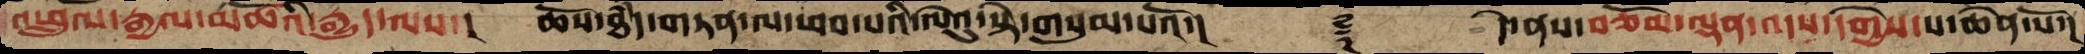འཕྲུལ་རྒྱལ་མཚོའི་རྒྱུད་ལས་།  ཆོས་ཐཾད་གཏན་ལ་ཕབ་པའི་ལེའུ་སྟེ་གསུམ་པའོ་།   ࿑   དེ་ནས་བཅོམ་ལྡན་འདས་དགྱེས་པ་ཆེན་པོ་།
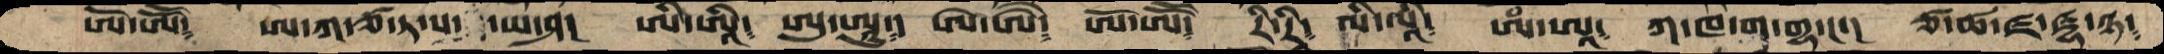ཨོ་ཨཽ༴  ཨ་ཀ་ཙ་ཏ་ས་ ཡ་ཤ།  ཨི་ཨཱི༴  ཨུ་ཨཱུ༴་  ཨེ་ཨཻ༴  ཨོ་ཨཽ༴  རི་རཱི༴  ལི་ལཱི༴  ཨཾ་ཨཱ༴  ཀ་ཁ་ག་གྷ་ང་།  ཙ་ཚ་ཛ་ཛྷ་ཉ༴
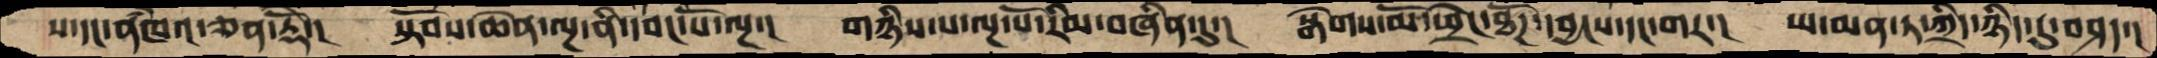པ་དང་ནཾཁའ་ཅན་རྡོེ་།  སྟོབས་ཆེན་ལྔ་ནི་དབང་པོ་ལྔ་།  གཉིས་པ་ལྔ་པོ་རིམ་བཞིན་དུ་།  སྒེགས་མོ་ཕྲེང་ཐོཌ་དབྱངས་དང་གར་།  ཡ་མན་ཏ་ཀྲིད་ཉིད་དུ་བཤད་།
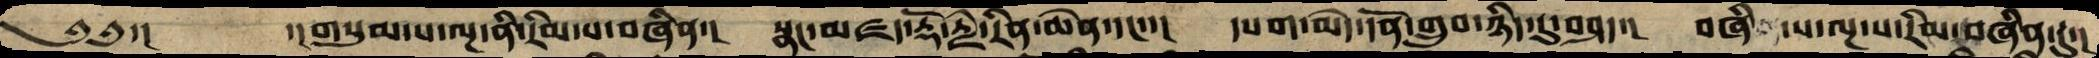༄༅་།   ་།གསུམ་པ་ལྔ་ནི་རིན་པ་བཞིན་།  སྣང་མཛད་རྡོ་རྗེ་རིན་ཆེན་དང་་།  དཔག་མེད་དོན་གྲུབ་ཉིད་དུ་བཤད་།  བཞི་པ་ལྔ་པ་རིམ་བཞིན་དུ་།
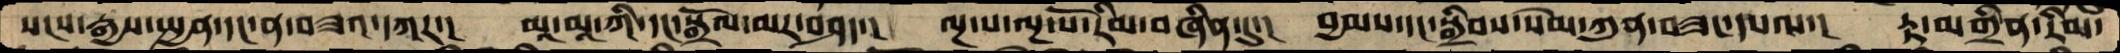སངས་རྒྱས་སྤྱན་དང་ན་བཟའ་དཀར་།  མཱ་མཱ་ཀི་དང་སྒྲོལ་མར་བཤད་།   ལྔ་པ་ལྔ་པོ་རིམ་བཞིན་དུ་།  བྱམས་དང་སྒྲིབས་སེལ་ཀུན་བཟང་དཔལ་།  རྟ་མགྲིན་རིམ་
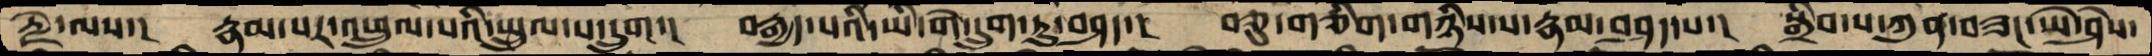རྗེ་ལས་།  རྣམ་པར་འཕྲུལ་པའི་སྤྲུལ་པ་དྲུག་།  བརྒྱད་པའི་ཡི་གེ་དྲུག་ཏུ་བཤད་།  བཅུ་གཅིག་གཉིས་པ་རྣམ་བཤད་པ་།  སྒྲིབ་པ་ཀུན་བཟང་ཡེ་ཤེས་
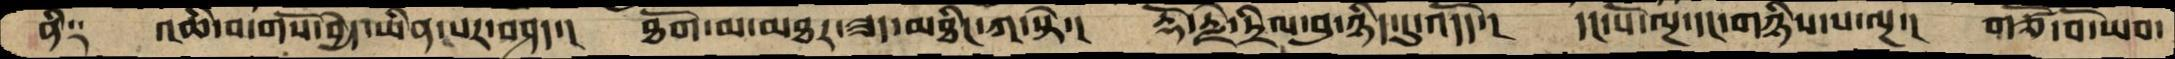ནི༑  འཆི་བ་གསོ་བྱེད་ཡིན་པར་བཤད་།  ཐོག་མ་མཐར་ཟད་མཐིང་ཀ་སྟེ་།  རྡོ་རྗེ་དྲིལ་བུ་ཉིད་དུ་འདོད་།  དང་པོ་ལྔ་དང་གཉིས་པ་ལྔ་།  གཙོ་བོ་ཡབ་
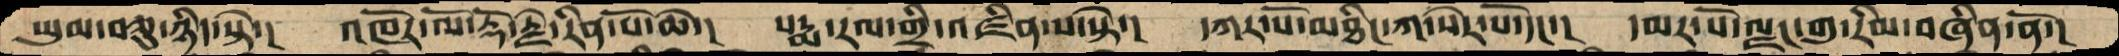ཡུམ་བཅུ་ཉིད་སྟེ་།  འཁོར་ལོ་རྡོ་རྗེ་རིན་པོ་ཆེ་།  པདྨ་རལ་གྲི་འཛིན་པ་སྟེ་།  དཀར་པོ་མཐིང་ཀ་སེར་པོ་དང་།  དམར་པོ་ལྗང་གུ་རིམ་བཞིན་ནོ་།
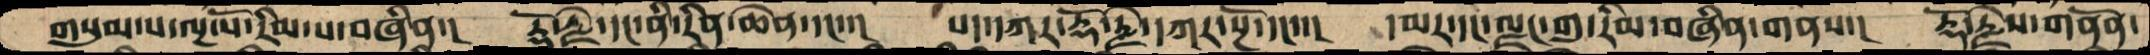གསུམ་པ་ལྔ་པོ་རིམ་པ་བཞིན་།  རྡོ་རྗེ་དང་ནི་རིན་ཆེན་དང་་།  པད་དཀར་རྡོ་རྗེ་དཀར་སྔོ་དང་་།  དམར་དང་ལྗང་གུ་རིམ་བཞིན་གནས་།  རྡོ་རྗེས་གནོན་
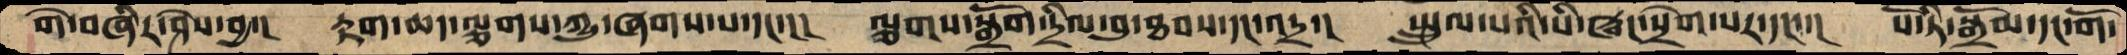གེ་བཞིར་ཤེས་བྱ་།  རྟག་ཆད་ལྕགས་ཀྱུ་ཞགས་པ་དང་།།  ལྕགས་སྒྲོག་དྲིལ་བུ་ཐབས་དང་འདྲ་།  སྤྲུལ་པའི་པི་ཝང་སྲེག་པར་དང་་།  པོ་ཏི་སྒྲོམ་དང་གོ་
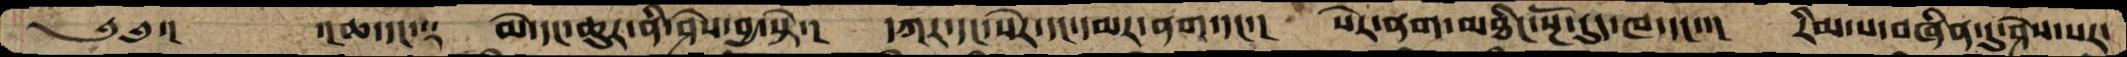༄༅་།   ་།ཆ་དང་༑   མེ་དང་ཆུར་ནི་ཤེས་བྱ་སྟེ་།  དཀར་དང་སེར་དང་དམར་ནག་དང་་།  སེར་ནག་མཐིང་སྔོ་དུད་ཁ་དང་་།  རིམ་པ་བཞིན་དུ་ཤེས་པར་
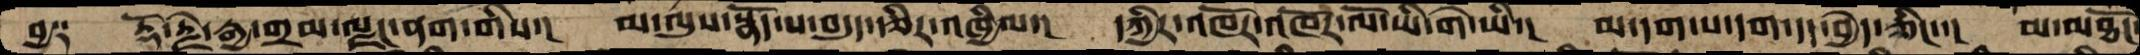བྱ༑  རྡོ་རྗེ་རྒྱ་གྲམ་ལྗང་ནག་གིས་།  མ་ལུས་སྣོད་པ་བདུད་རྩིར་འཁྱིལ་།  དཀྱིར་འཁོར་འཁོར་ལོ་ཡི་གེ་ཡི་།  མ་དག་པ་དག་དད་བྱེད་ཅིང་་།  མ་མཐོང་
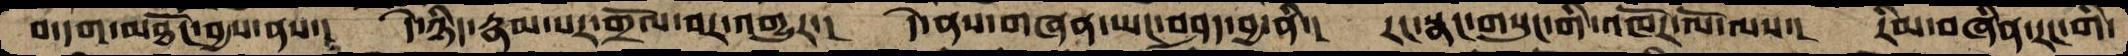བ་དག་མཐོང་བྱས་ནས་།  དེ་ཉིད་རྣམ་པར་གྲོལ་བར་འགྱུར་།  དེ་ནས་གཞན་ཡང་བཤད་བྱ་ནི་།  རང་སྣང་གསུང་གི་འཁོར་ལོ་ལས་།  རིམ་བཞིན་རང་གི་
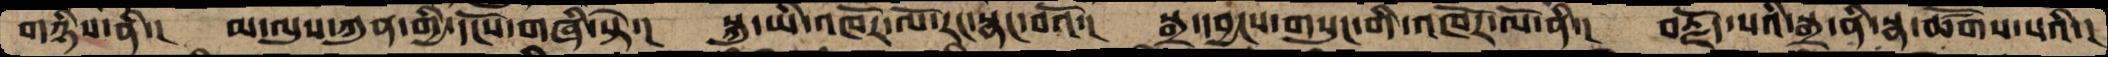གཉིས་ནི་།  མ་ལུས་ཀུན་གྱི་དངོས་གཞི་སྟེ་།  སྐུ་ཡི་འཁོར་ལོ་རང་སྣང་བའོ་།  སྒྲ་དབྱངས་གསུང་གི་འཁོར་ལོ་ནི་།  བརྗོད་པའི་སྒྲ་ནི་སྣ་ཚོགས་པའི་།
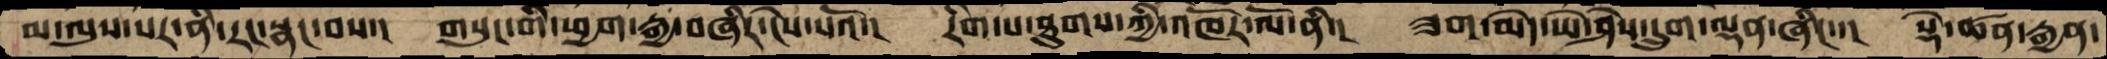མ་ལུས་སར་ནི་རང་སྣང་བས་།  གསུང་གི་ཕྱག་རྒྱ་བཞིར་ངེས་པའོ་།  རིག་པ་ཐུགས་ཀྱི་འཁོར་ལོ་ནི་།  ཟག་མེད་ཡེ་ཤེས་དྲུག་ལྡན་ཞིང་་།  སྡེ་ཚན་རྒྱན་
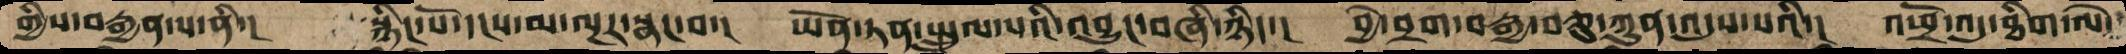གྱིས་བརྒྱན་པ་ནི་།  སྙིང་པོ་དངས་མ་ལྔར་སྣང་བ་།  ཡོན་ཏན་སྤྲུལ་པའི་འབྱུང་བཞི་ཉིད་།  བྱེ་བྲག་བརྒྱ་བཅུ་ཀུན་འདུས་པའི་།  འཕྲོ་འདུ་ཐིག་ལེ་
